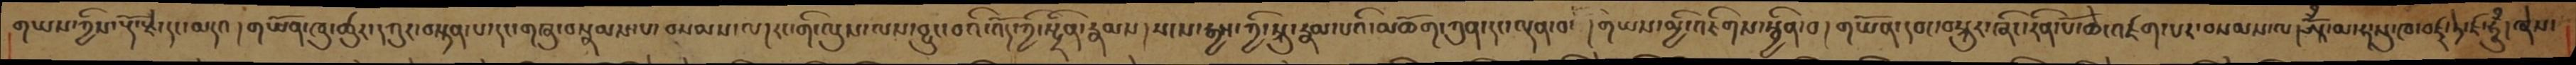གཡས་ཀྱིས་རྡོ་རྗེ་དང་མདའ། གཡོན་ཁུ་ཚུར་དཀུར་བསྟན་པ་དང་གཞུ་བསྣམས་པ་བསམས་ལ།རང་གི་ལུས་ལས་བྱུང་བའི་འོད་ཀྱི་སྤྲིན་རྣམས།སངས་རྒྱས་ཀྱི་སྐུ་རྣམ་པའི་མཆོག་ཀུན་དང་ལྡན་བ། གཡས་མྱི་འཇིགས་སྦྱིན་བ། གཡོན་དབང་བསྐུར་ཞིང་རིན་པོ་ཆེ་འཛག་པར་བསམས་ལ། ཨཱོྃ་མ་ཧ་སུ་ཁ་བཛྲ་ཏེ་ཛ་ཧཱུྃ་ཞེས་
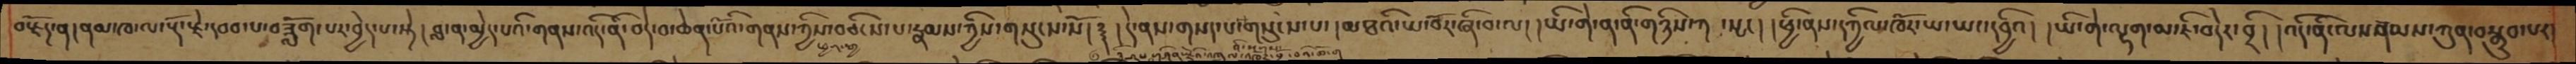བརྗོད་ན།ནམ་མཁ་ལ་རྡོ་རྗེ་དབབ་པ་བཟློག་པར་བྱེད་པ་སྟེ། བླ་ན་མྱེད་པའི་གནས་ནི་བདེ་བ་ཆེན་པོའི་གནས་ཀྱིས་བཅིངས་པ་རྣམས་ཀྱིས་གསུངས་སོ། ༈།དེ་ནས་གསད་པ་གསུངས་པ་། མཐའི་ཡ་བོར་ཞི་བ་ལ། །ཡི་གེ་ན་ནི་གཉིས་ཀ་སྤང། །ཕྱི་ནས་དཀྱིལ་ཁོར་ཡ་ཡང་དབྱིའ། །ཡི་གེ་ལྷག་མ་ཇི་བདེར་བྲི། །འདི་ནི་ལསརྣམས་ཀུན་བསྒྲུབ་པར
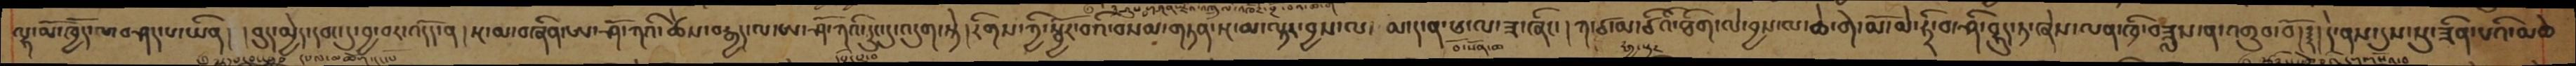ལྷ་མོ་ཁྱོད་ལ་བཤད་པ་ཡིན། །བུད་མྱེད་དབང་དུ་བྱ་བར་འདོད་ན། སྔ་མ་བཞིན་ཨ་ཤོ་ཀའི་ཚེས་བརྒྱད་ལ་ཨ་ཤོ་ཀའི་དྲུང་དུ་འདུག་སྟེ། རིགས་ཀྱི་སྦྱོར་བའི་བསམ་གཏན་སྔ་མ་ལྟར་བྱས་ལ། མ་ད་ན་ཕ་ལ་ཟ་ཞིང། ཀ་ཙ་མ་ཙིའི་ཐིག་ལེ་བྱས་ལ་ཆེ་གེ་མོ་མེ་ཧྲི་བ་ཤི་བྷུད་ཏ་ཞེས་ལན་ཁྲི་བཟླས་ན་འགྲུབ་བོ།༈།དེ་ནས་དུས་སུ་ཟིན་པའི་མཆེ
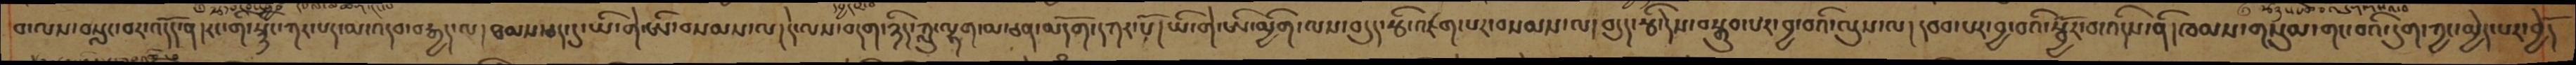བ་ལས་བསླང་བར་འདོད་ན། རང་གི་སྙིང་ཀར་པད་མ་འདབ་བརྒྱད་ལ། ཐམས་ཅད་དུ་ཡི་གེ་ཨི་བསམས་ལ། དེ་ལས་བདག་ཉིད་ཀླུ་ལྷག་མ་ཅན་མདོག་དཀར་པོ། ཡི་གེ་ཨི་མྱིག་ལས་བདུད་རྩི་འཛག་པར་བསམས་ལ། བདུད་རྩི་དེས་བསྒྲུབ་པར་བྱ་བའི་ལུས་ལ། དབབ་པར་བྱ་བའི་སྦྱོར་བ་འདིས་ནི། ཁམས་གསུམ་གང་བའི་དུག་ཀྱང་མྱེད་པར་བྱེདོ
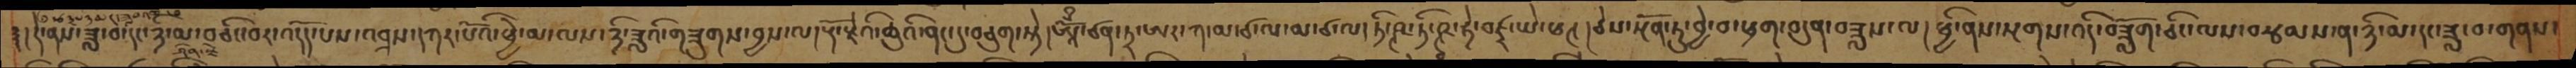༈།དེ་ནས་ཟླ་བ་དང་ཉི་མ་བཅིང་བར་འདོད་པས་འབྲས་དཀར་པོའི་ཕྱེ་མ་ལས་ཉི་ཟླའི་གཟུགས་བྱས་ལ། རྡོ་རྗེའི་ཆུའི་ནང་དུ་བཅུག་སྟེ། ཨཱོྃ་ཙན་ཏྲ་ཨར་ཀ་མ་ཙ་ལ་མ་ཙ་ལ། ཏི་ཤྚ་ཏི་ཥྚ་ཧེ་བཛྲ་ཡེ་ཕཊ།ཅེས་སྔོན་ཏུ་བྱེ་བ་ཕྲག་བདུན་བཟླས་ལ། ཕྱི་ནས་སྔགས་འདི་བཟློག་ཅིང་ལས་བརྩམས་ན་ཉི་མ་དང་ཟླ་བ་གནས་
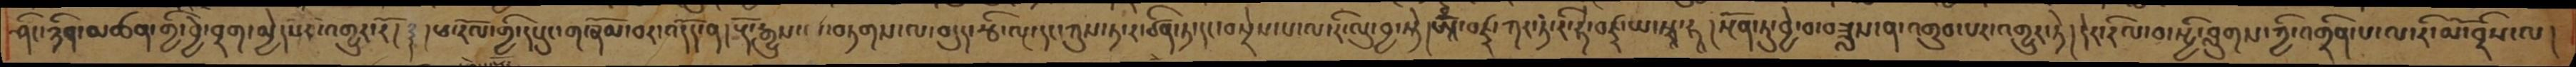ཤིང་ཉིན་མཚན་གྱི་བྱེ་བྲག་མྱེདཔར་འགྱུར་རོ། ༈།ཕ་རོལ་གྱི་དཔུང་གཞོམ་བར་འདོད་ན། རྡོ་རྒྱུས་བཏགས་ལ་བདུད་རྩི་ལྔ་དང་ཀུས་ཏ་ར་ཙིན་ཏ་དང་བསྲེས་པ་ལ་རི་ལུ་བྱ་སྟེ། ཨཱོྃ་བཛྲ་ཀར་ཏ་རི་ཧེ་བཛྲ་ཡ་སྭཱ་ཧཱ། སྔོན་ཏུ་བྱེ་བ་བཟླས་ན་འགྲུབ་པར་འགྱུར་ཏེ། དེར་རིལ་བ་སྤྱི་བླུགས་ཀྱི་འགྲིན་པ་ལ་རི་མོ་བྲིས་ལ།
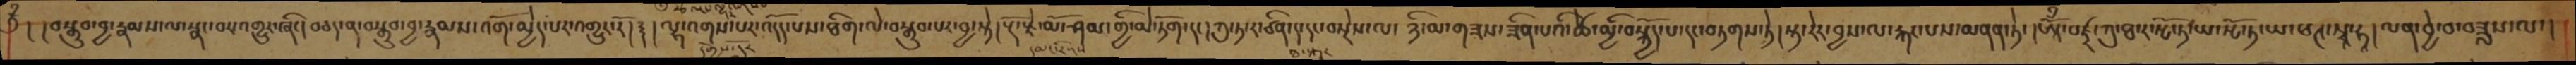༄ྃ། །བསྒྲུབ་བྱ་རྣམས་ལ་སྣང་བས་འགྱུར་ཞིང། བཅད་ན་བསྒྲུབ་བྱ་རྣམས་འགོ་མྱེད་པར་འགྱུར་རོ།༈།ལྷ་འགས་པར་འདོད་པས་ཐིག་ལེ་བསྒྲུབ་པར་བྱ་སྟེ། རྡོ་རྗེ་མོ་ཤམ་གྱི་མེ་ཏོག་དང། ཀུ་ཏ་ར་ཙིན་ད་དང་བསྲེས་ལ། ཉི་མ་གཟས་ཟིན་པའི་ཚེ་མྱི་བསྐྱོད་པ་དང་བཏགས་ཏེ། སྟ་རེར་བྱས་ལ་རྐང་པས་མནན་ཏེ། ཨཱོྃ་བཛྲ་ཀུ་ཐ་ར་སྤོ་ཏ་ཡ་སྤོ་ཏ་ཡ་ཕཊ་སྭཱ་ཧཱ། ལན་བྱེ་བ་བཟླས་ལ་།
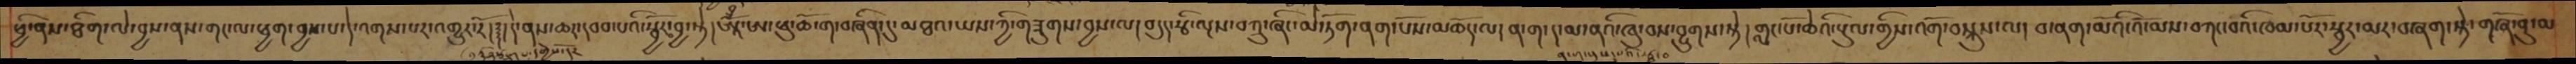ཕྱི་ནས་ཐིག་ལེ་བྱས་ནས་གང་ལ་ཕྱག་བྱས་པ་དེ་འགས་པར་འགྱུར་རོ། ༈ །དེ་ནས་ཆར་དབབ་པའི་སྦྱོར་བྱ་སྟེ། ཨཱོྃ་ཨ་ཕུ་ཆོ་ག་བཞིན་དུ་མཐའ་ཡས་ཀྱི་གཟུགས་བྱས་ལ། བདུད་རྩིལྔས་བཀྲུ་ཞིང་མེ་ཏོག་ནག་པོས་མཆོད་ལ། ན་ག་ད་མ་ནའི་ཁུ་བས་བྱུགས་སྟེ། གླང་པོ་ཆེའི་སྡུལ་གྱིས་འགོ་བསྐུས་ལ། བ་ནག་མོའི་འོ་མས་བཀང་བའི་ཁམ་པོར་སྦྱར་མར་བཞག་སྟེ་གཞོ་ནུ་མ
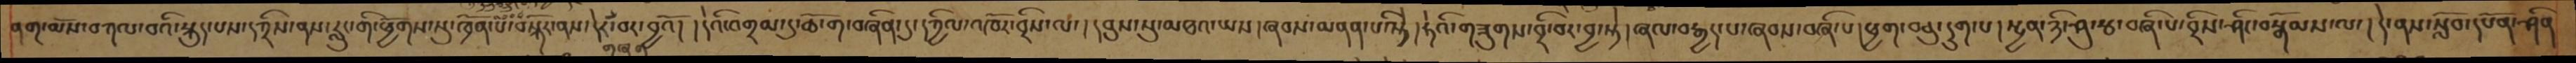ནག་མོས་བཀལ་བའི་སྐུད་པས་དཀྲིས་ནས་རླུང་གི་ཕྱོགས་སུ་ཁྲོན་པ་བསྐོར་ནས་དེར་གཞག་པར་བྱའོ། །དེའི་འགྲམ་དུ་ཆོ་ག་བཞིན་དུ་དཀྱིལ་འཁོར་བྲིས་ལ། དབུས་སུ་མཐའ་ཡས།ཞབས་མནན་པའི་སྟེ། ཧེའི་གཟུགས་བྲི་བར་བྱ་སྟེ། ཞལ་བརྒྱད་པ་ཞབས་བཞི་པ། ཕྱག་བཅུ་དྲུག་པ། སྤྱན་ཉི་ཤུ་རྩ་བཞི་པ་བྲིས་ཤིང་བསྒོམས་ལ། དེ་ནས་སློབ་དཔོན་ཤིན
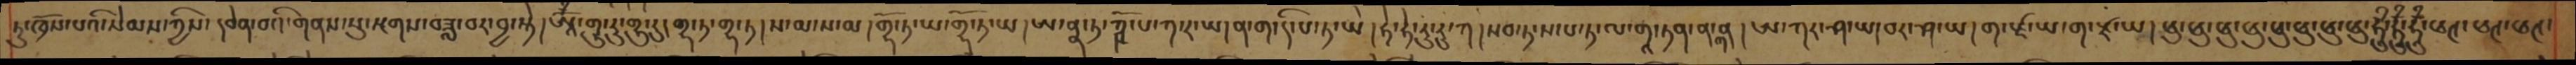ཏུ་ཁྲོས་པའི་སེམས་ཀྱིས་དབེན་བའི་གནས་སུ་སྔགས་བཟླ་བར་བྱ་སྟེ། ཨཱོྃ་གྷུ་རུ་གྷུ་རུ་དུ། གྷ་ཏ་གྷ་ཏ། ས་མ་ས་མ། གྷོ་ཏ་ཡ་གྷོ་ཏ་ཡ། ཨ་ནྣ་ཏ་ཀྵོ་པ་ཀ་ར་ཡ། ན་ག་དི་པ་ཏ་ཡེ། ཧེ་ཧེ་རུ་རུ་ཀ།སབ་ཏ་ས་པ་ཏ་ལ་གཱ་ཏན་ན་ག་ན། ཨ་ཀར་ཤ་ཡ། བར་ཤ་ཡ། ག་རྫ་ཡ་ག་རྫ་ཡ། ཕུ་ཕུ་ཕུ་ཕུ་ཕུ་ཕུ་ཕུ་ུཕུ་ཧཱུྃ་ཧཱུྃ་ཧཱུྃ་ཕཊ་ཕཊ་ཕཊ་
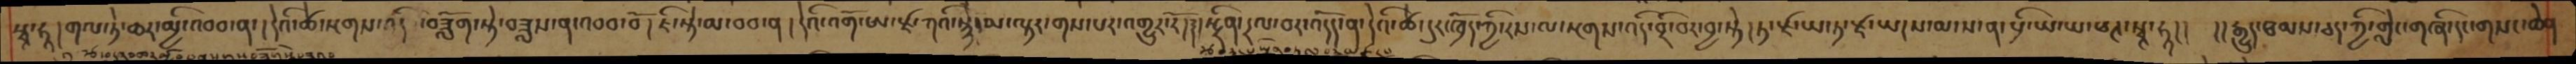སྭཱ་ཧཱ། གལ་ཏེ་ཆར་མྱི་འབབ་ན་། དེའི་ཚེ་སྔགས་འདི་བཟློག་སྟེ་བཟླས་ན་འབབ་བོ། ཇི་སྟེ་མ་བབ་ན། དེའི་འགོ་ཨ་ཛ་ཀའི་སྙེ་མ་ལྟར་གས་པར་འགྱུར་རོ།༈།སྤྲིན་དྲལ་བར་འདོད་ན་དེའི་ཚེ་དུར་ཁྲོད་ཀྱི་རས་ལ་སྔགས་འདི་བྲི་བར་བྱ་སྟེ། ཏ་རྫ་ཡ་ཏ་རྫ་ཡ།ས་མ་ས་ན་པྲི་ཡ་ཡ་ཕཊ་སྭཱ་ཧཱ།།  །།རྒྱུད་ཐམས་ཅད་ཀྱི་གླེང་གཞི་དང་གསང་ཆེན
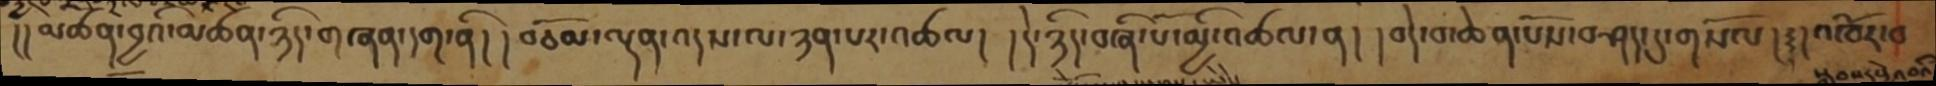།།མཚན་བྱའི་མཚན་ཉིད་གཞན་དག་ནི། །བཅོམ་ལྡན་འདས་ལ་ཉན་པར་འཚལ། །དེ་ཉིད་བཞི་པོ་མྱི་འཚལ་ན། །བདེ་བ་ཆེན་པོས་བཤད་དུ་གསོལ། ༈ །འཁོར་བ
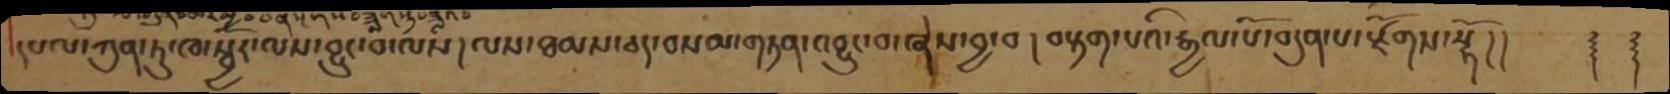དཔལ་ཀུན་ཏུ་ཁ་སྦྱོར་ལས་བྱུང་བ་ལས། ལས་ཐམས་ཅད་བསམ་གཏན་འབྱུང་བ་ཞེས་བྱ་བ།བརྟག་པའི་རྒྱལ་པོ་བདུན་པ་རྫོགས་སྷོ།།   ༈ ༈
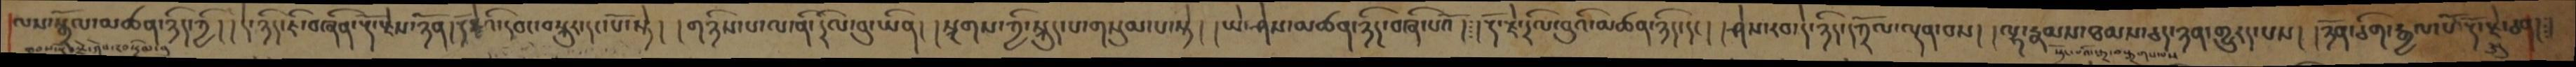ལས་སྒྲོལ་མཚན་ཉིད་ཀྱི། །དེ་ཉིད་ཇི་བཞིན་རྡོ་རྗེ་ཉོན། རྡོ་རྗེའི་དབང་བསྐུར་དང་པོ་སྟེ། །གཉིས་པ་ལ་ནི་དྲིལ་བུ་ཡིན། །སྔགས་ཀྱི་སྐུད་པ་གསུམ་པ་སྟེ། །ཡེ་ཤེས་མཚན་ཉིད་བཞི་པའོ། །རྡོ་རྗེ་དྲིལ་བུའི་མཚན་ཉིད་དང། །ཤེས་རབ་དེ་ཉིད་དཀྲོལ་ལྡན་བས། །ལྷ་རྣམས་ཐམས་ཅད་ཉན་གྱུརད་པས། །ཉོན་ཅིག་རྒྱལ་པོ་རྡོ་རྗེ་ཅན། །
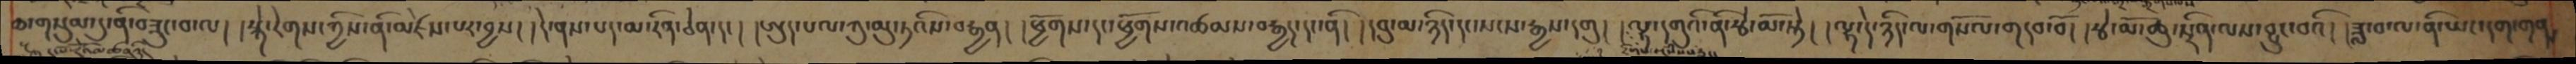ཆ་གསུམ་དུ་ནི་བཟུང་བ་ལ། །སྐེ་རེགས་ཀྱིས་ནི་མཛེས་པར་བྱས། །དེ་ནས་པད་མ་རིན་ཅེན་དང། །ཨུད་པལ་ཀུ་མུ་ཏའིས་བརྒྱན། །ཕྱོགས་དང་ཕྱོགས་འཚམས་བརྒྱད་དང་ནི། །དབུ་མ་ཉིད་དང་སངས་རྒྱས་དགུ། །ལྷ་དགུའི་ནི་རྩེ་མོ་སྟེ། །ལྷ་དེ་ཉིད་ལ་གསོལ་གདབ་བོ། །རྩེ་མོ་ཆུ་སྲིན་ལས་བྱུང་བའི། །ཟླ་བ་ལ་ནི་ཡང་དག་གནས
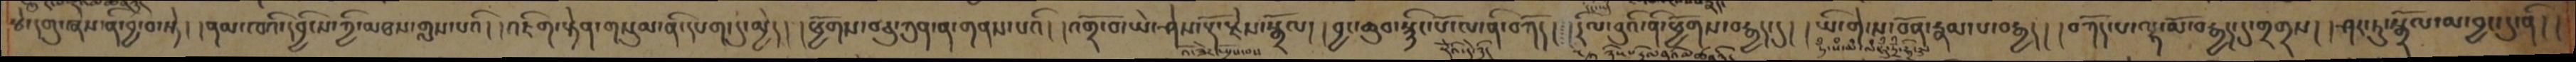རྩེ་དགུ་ཞེས་ནི་བྱ་བ་སྟེ། །ནམ་ཁའི་དབྱིངས་ཀྱི་མཐས་གླས་པའི། །འཇིག་རྟེན་གསུམ་ནི་དཔག་དུ་མྱེད། །ཕྱོགས་བཅུ་ཀུན་ན་གནས་པའི། །འགྲོ་བ་ཡེ་ཤེས་རྡོ་རྗེས་སྒྲོལ། །བྱང་ཆུབ་སྙིང་པོ་ལ་ནི་བཀོད། །དྲིལ་བུའི་ནི་ཕྱོགས་བརྒྱད་དུ། །ཡི་གེ་ས་བོན་རྣམ་པ་བརྒྱད། །བཀོད་པ་ལྷ་མོ་བརྒྱད་དུ་གྲགས། །ཤར་ཏུ་སྒྲོལ་མ་བྱང་དུ་ནི། །
